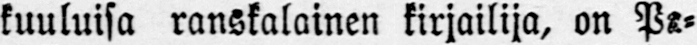kuuluisa ranskalainen kirjailija, on Pa-
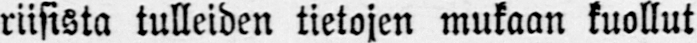riisista tulleiden tietojen mukaan kuollut
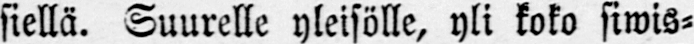siellä. Suurelle yleisölle, yli koko siwis-
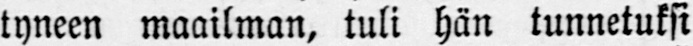tyneen maailman, tuli hän tunnetuksi
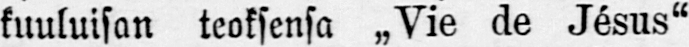kuuluisan teoksensa „Vie de Jésus"
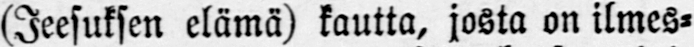(Jeesuksen elämä) kautta, josta on ilmes-
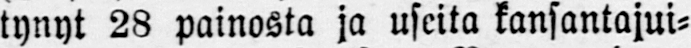tynyt 28 painosta ja useita kansantajui-
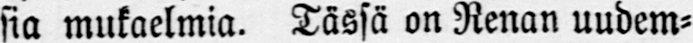sia mukaelmia. Tässä on Renan uudem-
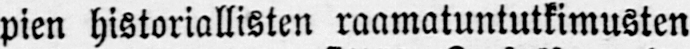pien historiallisten raamatuntutkimusten
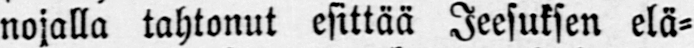nojalla tahtonut esittää Jeesuksen elä-
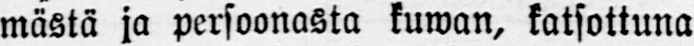mästä ja persoonasta kuwan, katsottuna
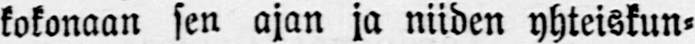kokonaan sen ajan ja niiden yhteiskun-
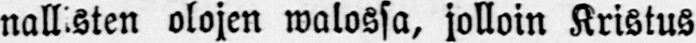nallisten olojen walossa, jolloin Kristus
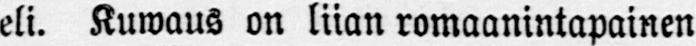eli. Kuwous on liian romaanintapainen
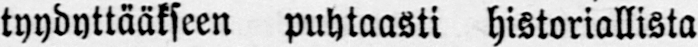tyydyttääkseen puhtaasti historiallista
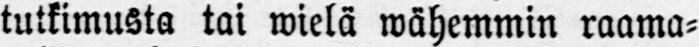tutkimusta tai wielä wähemmin raama-
